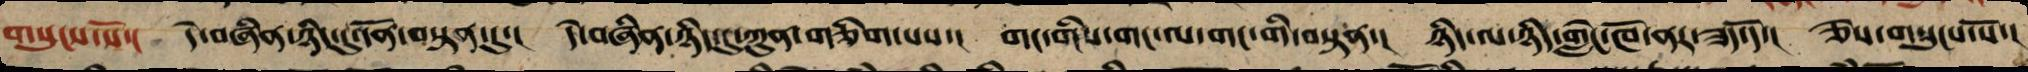གསུངས་སོ་། དེ་བཞིན་ཉིད་དུ་དོན་བསྟན་དུ་། དེ་བཞིན་ཉིད་དུ་ཀུན་གཅིག་པས་། གང་གིས་གང་ལ་གང་གིས་བསྟན་། ཉིད་ལ་ཉིད་གླེང་ཁོ་ནར་ཟད་དོ་། ཅེས་གསུངས་སོ་།
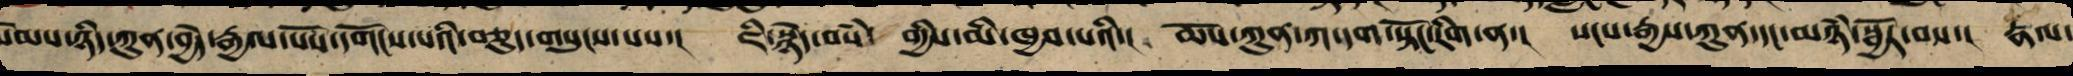སེམས་ཉིད་ཀུན་བྱེད་རྒྱལ་པོས་དགོངས་པའི་བཅུད་གསུངས་པ་། ཇི་སྙེད་བསཾ་གྱིས་མི་ཁྱབ་པའི་། ཆོས་ཀུན་ཀ་དག་སྟོང་རིག་ན་། སངས་རྒྱས་ཀུན་དང་མཉཾ་སྦྱོར་བས་། རྣལ་
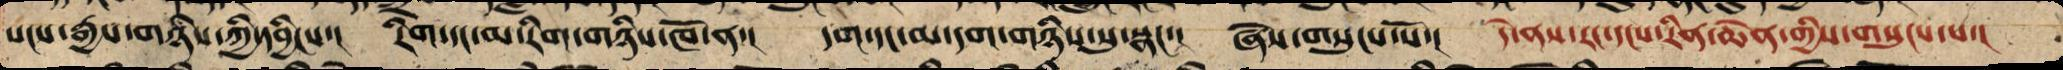སངས་རྒྱས་གཉིས་ཀྱི་དབྱིངས་། རིག་དང་མ་རིག་གཉིས་ཁོ་ན་། དག་དང་མ་དག་གཉིས་སུ་སྣང་། ཞེས་གསུངས་སོ་། དེ་ནས་ངང་དངས་རིན་ཆེན་གྱིས་གསུངས་པ་།
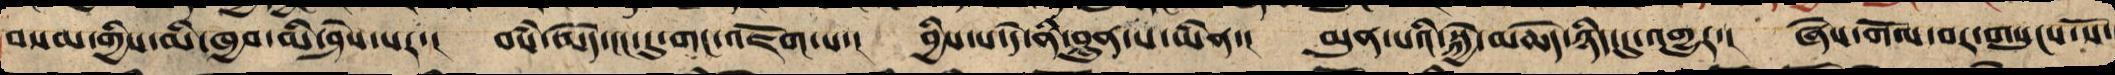བསམ་གྱིས་མི་ཁྱབ་མི་ཤེས་པར་། བསཾ་མེད་ངང་དུ་གང་འཇོག་པ་། བྱིས་པ་དེ་ནི་བླུན་པ་ཡིན་། མུན་པའི་སྐྱེ་མཆེད་ཉིད་དུ་འགྱུར་། ཞེས་གོལ་བར་གསུངས་སོ་
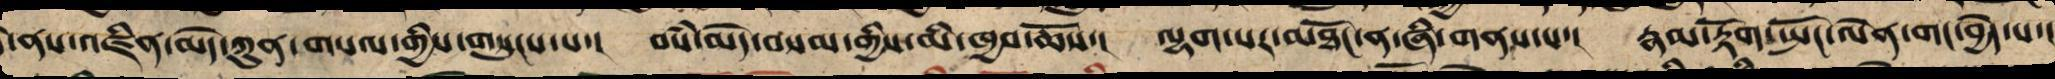དེ་ནས་འཛིན་མེད་ཀུན་གསལ་གྱིས་གསུངས་པ་། བསཾ་མེད་བསམ་གྱིས་མི་ཁྱབ་ཆོས་། ལྷག་པར་མཐོང་ན་གཞི་གནས་པ། རྣམ་རྟོག་སྤང་ལེན་གང་བྱེད་པ་།
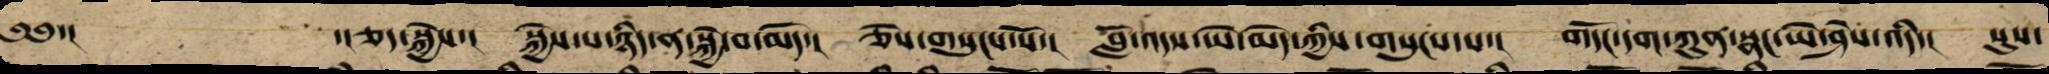༄༅་། ་།ཅད་སྐྱེས་། སྐྱེས་པ་ཉིད་ན་སྐྱེ་བ་མེད་། ཅེས་གསུངས་སོ་། བློ་འདས་ཡེ་མེད་ཀྱིས་གསུངས་པ་། གདོང་དག་ཀུན་སྣང་ཡེ་ཤེས་འདི་། སུས་
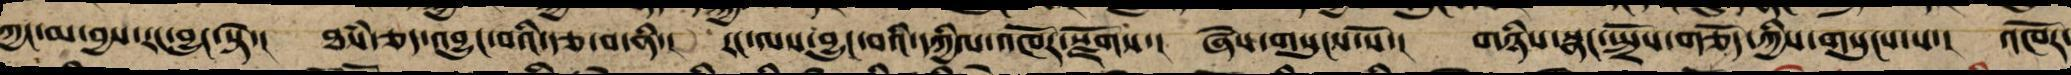ཀྱང་མ་བྱས་རང་བྱུང་སྟེ་། ཐཾས་ཅད་འབྱུང་བའི་རྩ་བ་ནི་། རང་ལས་བྱུང་བའི་དཀྱིལ་འཁོར་སྫོགས་། ཞེས་གསུངས་སོ་། གཉིས་སྣང་སྤྲོས་གཅོད་ཀྱིས་གསུངས་པ་། འཁོར་
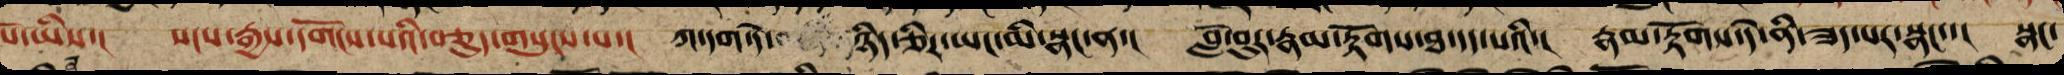པོ་ཡིས་། སངས་རྒྱས་དགོངས་པའི་བཅུད་གསུངས་པ་། ཀ་དག་དེ་ཉིད་ཅིར་ཡང་མི་སྣང་ན་། བློ་བུར་རྣམ་རྟོག་ཐ་དད་པའི་། རྣམ་རྟོག་དེ་ནི་ཟད་པར་སྣང་་། སྣང་
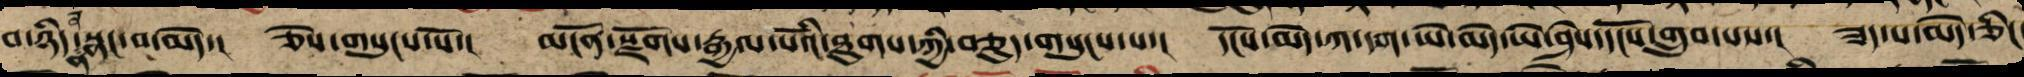བ་ཉིད་སྣང་བ་མེད་། ཅེས་གསུངས་སོ་། མངོན་སྫོགས་རྒྱལ་པོས་ཐུགས་ཀྱི་བཅུད་གསུངས་པ་། དངོས་མེད་ཀ་དག་ཡེ་མེད་ཡེ་ཤེས་དངོས་གྲུབ་པས་། ཟད་པ་མེད་ཅིང་
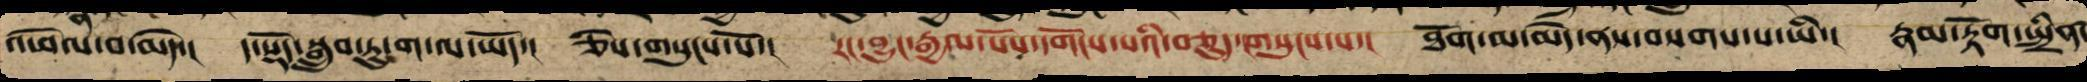འཕེལ་བ་མེད་། ད་གདོད་སྒྲུབ་ཏུ་ག་ལ་ཡོད་། ཅེས་གསུངས་སོ་། རང་བྱུང་རྒྱལ་པོས་དགོངས་པའི་བཅུད་གསུངས་པ་། ཐོག་མ་མེད་ནས་བསགས་པ་ཡི་། རྣམ་རྟོག་སྤྲིན་
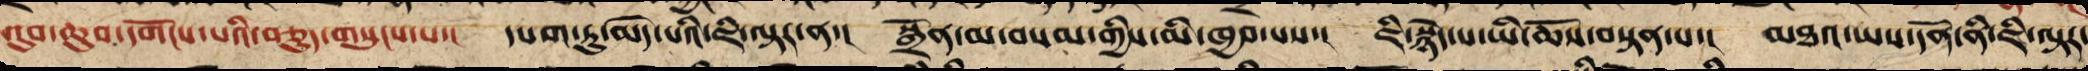འུབ་ཆུབ་དགོངས་པའི་བཅུད་གསུངས་པ་། དཔག་ཏུ་མེད་པའི་འཇིག་རྟེན་དུ་། སྒྲོན་མ་བསམ་གྱིས་མི་ཁྱབ་པས་། ཇི་སྙེད་པ་ཡི་ཆོས་བསྟན་པ་། མཐའ་ཡས་དོན་ནི་ཇི་ལྟར་
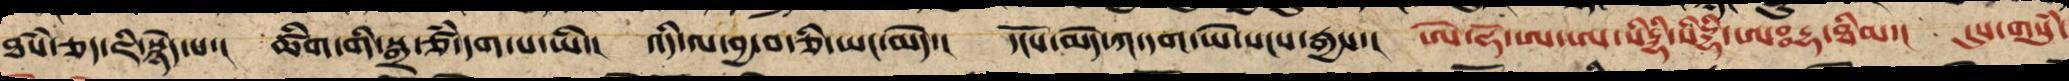ཐཾས་ཅད་ཇི་སྙེད་པ་། ཚིག་གི་ཐ་སྙད་ཙམ་དག་ལས་། འདི་ལས་བྱ་བ་ཅི་ཡང་མེད་། དངོས་མེད་ཀ་དག་ཡེ་སངས་རྒྱས་། ཨེ་ཧོ་ཨ་ཨ་སིདྡྷི་སིདྡྷི་ཨཿདྷ་ཐིམ་། དུས་གསུཾ་
